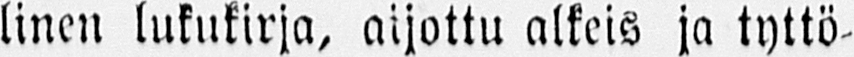linen lukukirja, aijottu alkeis ja tyttö-
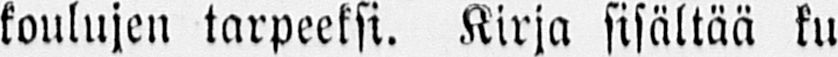koulujen tarpeeksi. Kirja sisältää ku-
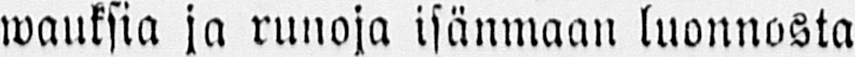wauksia ja runoja isänmaan luonnosta
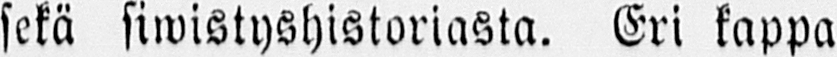sekä siwistyshistoriasta. Eri kappa-
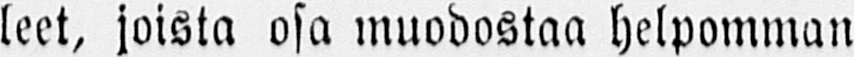leet, joista osa muodostaa helpomman
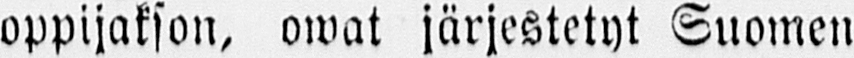oppijakson, owat järjestetyt Suomen
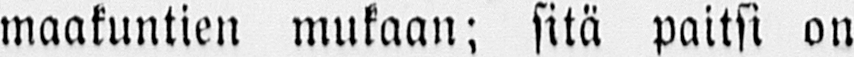maakuntien mukaan; sitä paitsi on
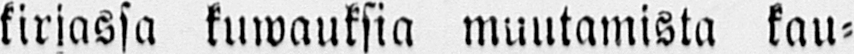kirjassa kuwauksia muutamista kau-
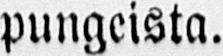pungeista.
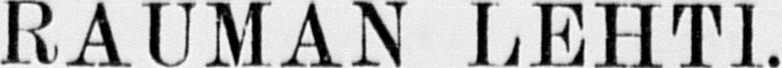RAUMAN LEHTI.
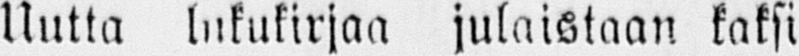Uutta lukukirjaa julaistaan kaksi
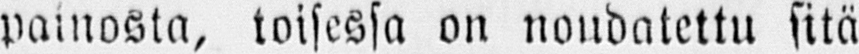painosta, toisessa on noudatettu sitä
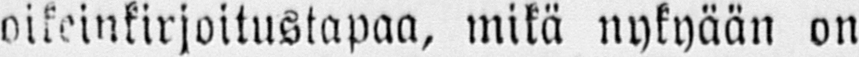oikeinkirjoitustapaa, mikä nykyään on
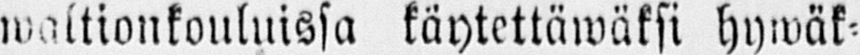waltionkouluissa käytettäwäksi hywäk-
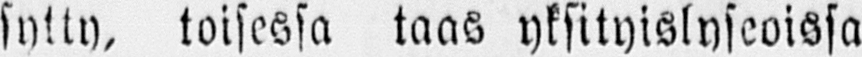sytty, toisessa taas yksityislyseoissa
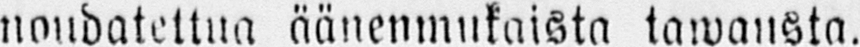noudatettua äänenmukaista tawausta.
